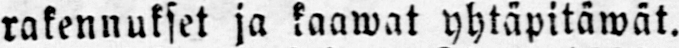rakennukset ja kaawat yhtäpitäwät.
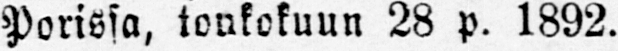Porissa, toukokuun 28 p. 1892.
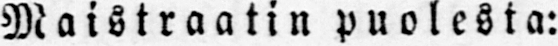Maistraatin puolesta:
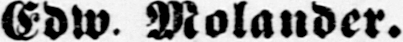Edw. Molander.
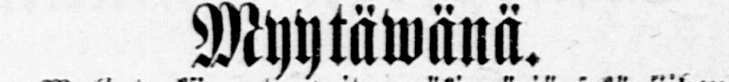Myytäwänä.
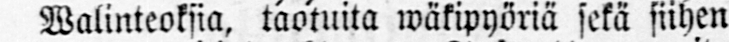Walinteoksia, taotuita wäkipyöriä sekä siihen
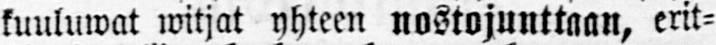kuuluiwat witjat yhteen nostojunttaan, erit-
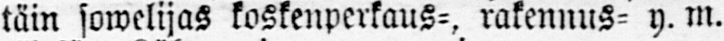täin sowelijas koskenperkaus-, rakennus- y. m.
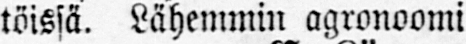töissä. Lähemmin agronoomi
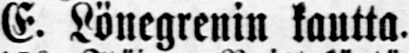E. Lönegrenin kautta.
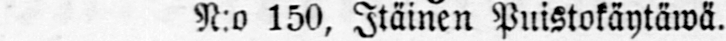N:o 150, Itäinen Puistokäytäwä.
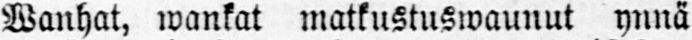Wanhat, wankat matkustuswaunut ynnä
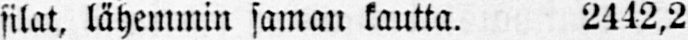silat, lähemmin saman kautta. 2442,2
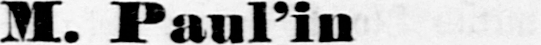M. Paul'in
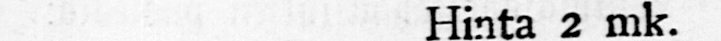Harmonika-koulu.
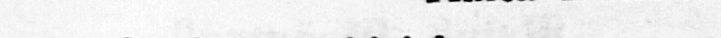Hinta 2 mk.
